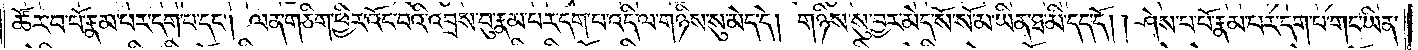ཚོར་བ་པོ་རྣམ་པར་དག་པ་དང༌། ལན་ཅིག་ཕྱིར་འོང་པའི་འབྲས་བུ་རྣམ་པར་དག་པ་འདི་ལ་གཉིས་སུ་མེད་དེ། གཉིས་སུ་བྱར་མེད་སོ་སོ་མ་ཡིན་ཐ་མི་དད་དོ། །ཤེས་པ་པོ་རྣམ་པར་དག་པ་གང་ཡིན་
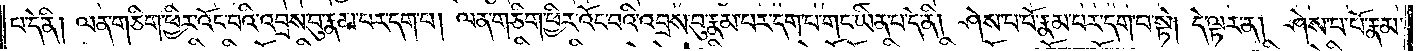པ་དེ་ནི། ལན་ཅིག་ཕྱིར་འོང་བའི་འབྲས་བུ་རྣམ་པར་དག་པ། ལན་ཅིག་ཕྱིར་འོང་བའི་འབྲས་བུ་རྣམ་པར་དག་པ་གང་ཡིན་པ་དེ་ནི། ཤེས་པ་པོ་རྣམ་པར་དག་པ་སྟེ། དེ་ལྟར་ན། ཤེས་པ་པོ་རྣམ་
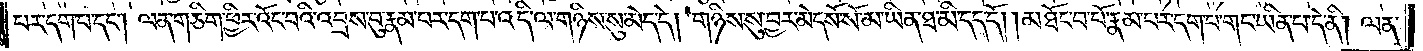པར་དག་པ་དང༌། ལན་ཅིག་ཕྱིར་འོང་པའི་འབྲས་བུ་རྣམ་པར་དག་པ་འདི་ལ་གཉིས་སུ་མེད་དེ། གཉིས་སུ་བྱར་མེད་སོ་སོ་མ་ཡིན་ཐ་མི་དད་དོ། །མཐོང་བ་པོ་རྣམ་པར་དག་པ་གང་ཡིན་པ་དེ་ནི། ལན་
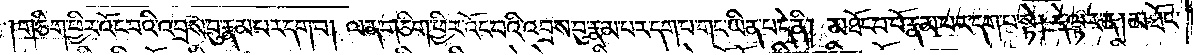ཅིག་ཕྱིར་འོང་པའི་འབྲས་བུ་རྣམ་པར་དག་པ། ལན་ཅིག་ཕྱིར་འོང་བའི་འབྲས་བུ་རྣམ་པར་དག་པ་གང་ཡིན་པ་དེ་ནི། མཐོང་བ་པོ་རྣམ་པར་དག་པ་སྟེ། དེ་ལྟར་ན། མཐོང་
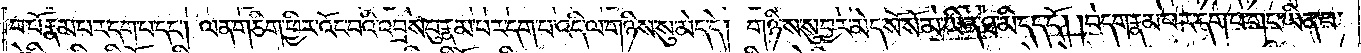བ་པོ་རྣམ་པར་དག་པ་དང༌། ལན་ཅིག་ཕྱིར་འོང་བའི་འབྲས་བུ་རྣམ་པར་དག་པ་འདི་ལ་གཉིས་སུ་མེད་དེ། གཉིས་སུ་བྱར་མེད་སོ་སོ་མ་ཡིན་ཐ་མི་དད་དོ། །བདག་རྣམ་པར་དག་པ་གང་ཡིན་པ་
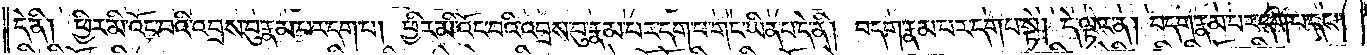དེ་ནི། ཕྱིར་མི་འོང་བའི་འབྲས་བུ་རྣམ་པར་དག་པ། ཕྱིར་མི་འོང་བའི་འབྲས་བུ་རྣམ་པར་དག་པ་གང་ཡིན་པ་དེ་ནི། བདག་རྣམ་པར་དག་པ་སྟེ། དེ་ལྟར་ན། བདག་རྣམ་པར་དག་པ་དང༌།
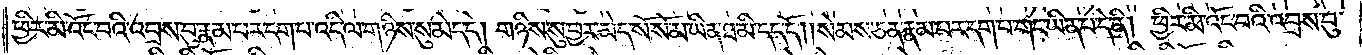ཕྱིར་མི་འོང་བའི་འབྲས་བུ་རྣམ་པར་དག་པ་འདི་ལ་གཉིས་སུ་མེད་དེ། གཉིས་སུ་བྱར་མེད་སོ་སོ་མ་ཡིན་ཐ་མི་དད་དོ། །སེམས་ཅན་རྣམ་པར་དག་པ་གང་ཡིན་པ་དེ་ནི། ཕྱིར་མི་འོང་བའི་འབྲས་བུ་
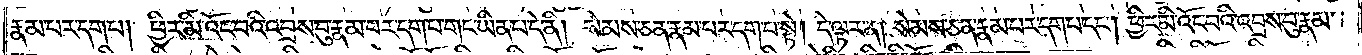རྣམ་པར་དག་པ། ཕྱིར་མི་འོང་བའི་འབྲས་བུ་རྣམ་པར་དག་པ་གང་ཡིན་པ་དེ་ནི། སེམས་ཅན་རྣམ་པར་དག་པ་སྟེ། དེ་ལྟར་ན། སེམས་ཅན་རྣམ་པར་དག་པ་དང༌། ཕྱིར་མི་འོང་བའི་འབྲས་བུ་རྣམ་
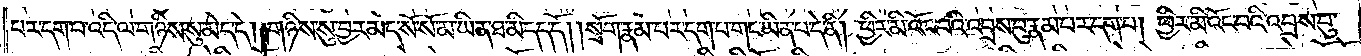པར་དག་པ་འདི་ལ་གཉིས་སུ་མེད་དེ། གཉིས་སུ་བྱར་མེད་སོ་སོ་མ་ཡིན་ཐ་མི་དད་དོ། །སྲོག་རྣམ་པར་དག་པ་གང་ཡིན་པ་དེ་ནི། ཕྱིར་མི་འོང་བའི་འབྲས་བུ་རྣམ་པར་དག་པ། ཕྱིར་མི་འོང་བའི་འབྲས་བུ་
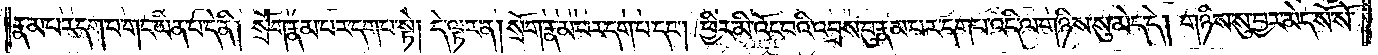རྣམ་པར་དག་པ་གང་ཡིན་པ་དེ་ནི། སྲོག་རྣམ་པར་དག་པ་སྟེ། དེ་ལྟར་ན། སྲོག་རྣམ་པར་དག་པ་དང༌། ཕྱིར་མི་འོང་བའི་འབྲས་བུ་རྣམ་པར་དག་པ་འདི་ལ་གཉིས་སུ་མེད་དེ། གཉིས་སུ་བྱར་མེད་སོ་སོ་
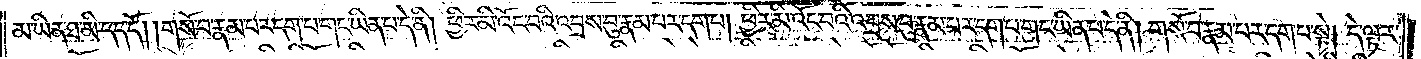མ་ཡིན་ཐ་མི་དད་དོ། །གསོ་བ་རྣམ་པར་དག་པ་གང་ཡིན་པ་དེ་ནི། ཕྱིར་མི་འོང་བའི་འབྲས་བུ་རྣམ་པར་དག་པ། ཕྱིར་མི་འོང་བའི་འབྲས་བུ་རྣམ་པར་དག་པ་གང་ཡིན་པ་དེ་ནི། གསོ་བ་རྣམ་པར་དག་པ་སྟེ། དེ་ལྟར་
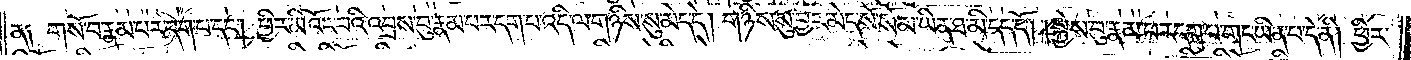ན༑ གསོ་བ་རྣམ་པར་དག་པ་དང༌། ཕྱིར་མི་འོང་བའི་འབྲས་བུ་རྣམ་པར་དག་པ་འདི་ལ་གཉིས་སུ་མེད་དེ། གཉིས་སུ་བྱར་མེད་སོ་སོ་མ་ཡིན་ཐ་མི་དད་དོ། །སྐྱེས་བུ་རྣམ་པར་དག་པ་གང་ཡིན་པ་དེ་ནི། ཕྱིར་
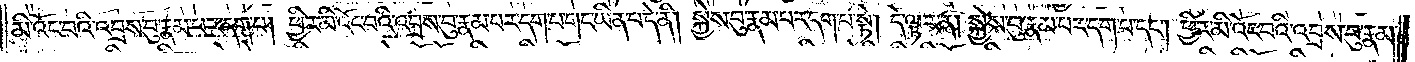མི་འོང་བའི་འབྲས་བུ་རྣམ་པར་དག་པ། ཕྱིར་མི་འོང་བའི་འབྲས་བུ་རྣམ་པར་དག་པ་གང་ཡིན་པ་དེ་ནི། སྐྱེས་བུ་རྣམ་པར་དག་པ་སྟེ། དེ་ལྟར་ན། སྐྱེས་བུ་རྣམ་པར་དག་པ་དང༌། ཕྱིར་མི་འོང་བའི་འབྲས་བུ་རྣམ་
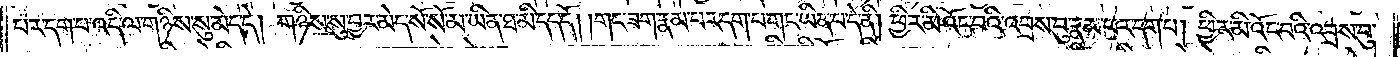པར་དག་པ་འདི་ལ་གཉིས་སུ་མེད་དེ། གཉིས་སུ་བྱར་མེད་སོ་སོ་མ་ཡིན་ཐ་མི་དད་དོ། །གང་ཟག་རྣམ་པར་དག་པ་གང་ཡིན་པ་དེ་ནི། ཕྱིར་མི་འོང་བའི་འབྲས་བུ་རྣམ་པར་དག་པ། ཕྱིར་མི་འོང་བའི་འབྲས་བུ་
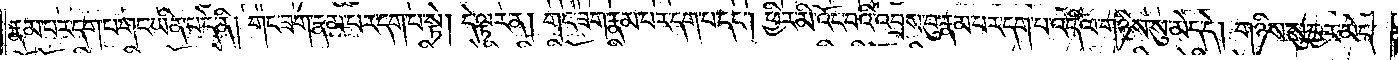རྣམ་པར་དག་པ་གང་ཡིན་པ་དེ་ནི། གང་ཟག་རྣམ་པར་དག་པ་སྟེ། དེ་ལྟར་ན། གང་ཟག་རྣམ་པར་དག་པ་དང༌། ཕྱིར་མི་འོང་བའི་འབྲས་བུ་རྣམ་པར་དག་པ་འདི་ལ་གཉིས་སུ་མེད་དེ། གཉིས་སུ་བྱར་མེད་
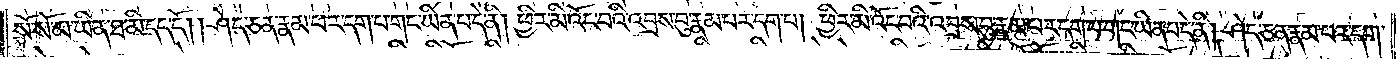སོ་སོ་མ་ཡིན་ཐ་མི་དད་དོ། །ཤེད་ཅན་རྣམ་པར་དག་པ་གང་ཡིན་པ་དེ་ནི། ཕྱིར་མི་འོང་བའི་འབྲས་བུ་རྣམ་པར་དག་པ། ཕྱིར་མི་འོང་བའི་འབྲས་བུ་རྣམ་པར་དག་པ་གང་ཡིན་པ་དེ་ནི། ཤེད་ཅན་རྣམ་པར་དག་
